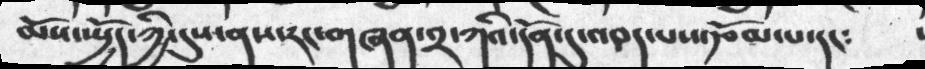མོས་ཡྱོད་ཀྱི་དུས་ནས་རང་གཞན་༢་ཀའི་དོན་དུ་འབད་པས་རྩོམ་པ་དང༴
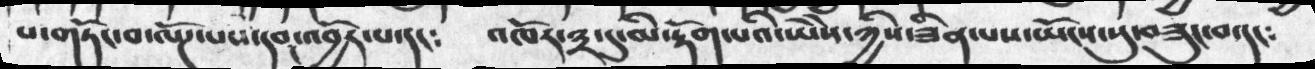པ་གཏོང་བ་ལོཌ་པས་དབང་འབྱོར་པ་དང༴  འཁོར་༣་དུ་མི་རྟོག་པའི་ཡེེས་ཀྱིས་ཟིན་པས་ཡོངས་སུ་བཟུང་བ་དང༴
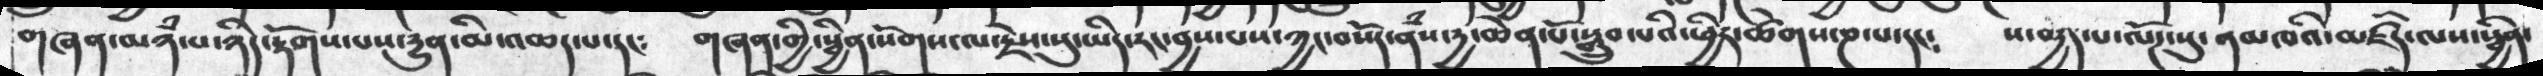གཞན་མཉཾ་པ་ཉིད་རྟོགས་པས་རྱུན་མི་འཆད་པ་དང༴   གཞན་གྱི་སྦྱིན་སོགས་ལ་རྗེས་སུ་ཡི་རང་བྱས་པས་ཀྱང་བསོད་ནཾས་རྱ་ཆེན་པོ་སྒྲུབ་པའི་ཕྱིར་ཚིགས་ཎ་པ་དང༴   ས་བརྱད་པ་ལོཌ་སུ་ནམཁའི་མཚིད་ལས་སྦྱིན་
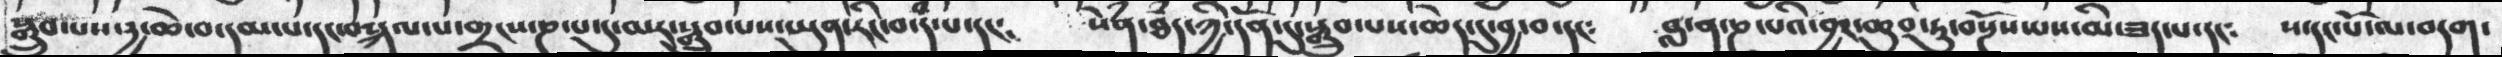སྒྲུབ་པས་དྱ་ཆེ་བ་དམ་པ་དང་བསྐལ་པ་གྲངས་ཎ་པ་དུ་མར་སྒྲུབ་པས་ཡུན་རིང་བ་ད་ཾཔ་དང༴  སེཾན་ཐཾད་ཀྱི་དོན་དུ་སྒྲུབ་པས་ཆེད་དུ་བྱ་བ་དང༴   བླ་ན་ཎ་པའི་བྱང་ཆུབ་ཏུ་བསྔོས་པས་མི་ཟད་པ་དང༴   ས་དང་པོ་ལ་བདག་
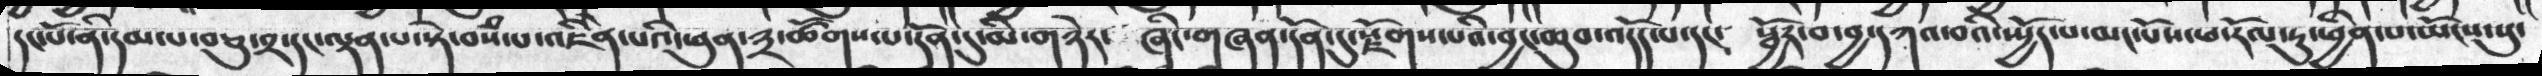དང་པོ་ནི་དམ་པ་བཅུ་༢་དང་ལྡན་པ་སྟེ་བསཾ་པ་འཇིིན་པའི་ཕུན་༣་ཚོགས་པ་དོན་དུ་མི་གཉེར་  ཞིང་གཞན་དོན་དུ་སྫོགས་པའི་བྱང་ཆུབ་འདོད་པ་དང༴   སྦྱོར་བ་བྱ་དཀའ་བའི་ཡྱོད་པ་མང་པོས་ཕ་རོལ་ཏུ་ཕྱིན་པ་ཡོངས་སུ་
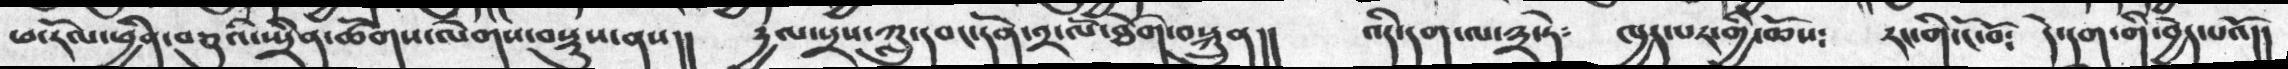ཕ་རོལ་ཕྱིན་བཅུའི་སྤྲིན་ཚོགས་ལེགས་བསྡུས་ནས།།  དྱལ་སྲས་ཀླུ་དབང་དོན་༢་ལོ་ཐོག་བསྐྲུན།།   འདི་དག་ལ་༣་ཏེ༴  ཁྱད་པར་གྱི་ཆོས༴  རང་གི་ངོ་བོ༴  དེ་དག་གི་བྱེད་པའོ།།
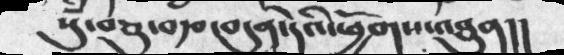སུཾ་བཅུ་བརྩ་བདུན་དེའི་ཕྱོགས་འཐུན།།
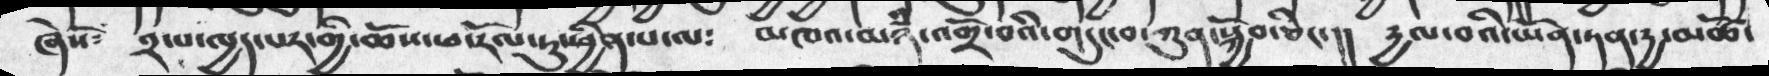ཞེསོ༴  ༢་པ་ཁྱད་པར་གྱི་ཆོས་ཕ་རོལ་ཏུ་ཕྱིན་པ་ལ༴  མཁའ་མཉཾ་འགྲོ་བའི་གདུང་བ་ཀུན་སྐྱོབ་ཅིང་།།  དྱལ་བའི་ཡོན་ཏན་དྱ་མཚོ་
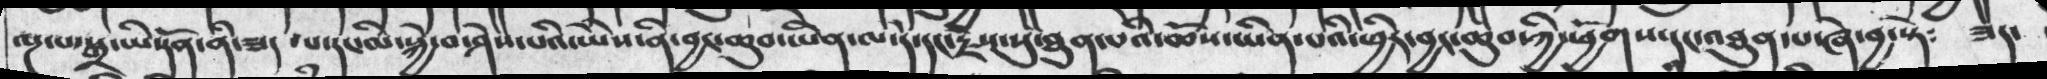ལྔ་པ་སྒྲ་ཡི་དོན་ནི་ཟད ་པ་དང་མི་སྐྱེ་བ་ཤེས་པའི་ཡཻས་ནི་བྱང་ཆུབ་ཡིན་ལ་དེ་དང་རྗེས་སུ་ཐུན་པའི་ཆོས་ཡིན་པའི་ཕྱིར་བྱང་ཆུབ་ཀྱི་ཕྱོགས་དང་འཐུན་པ་ཞེ་བྱ་སྟེ༴  ཟད་
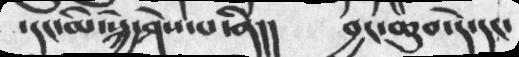་དང་མི་སྐྱེ་ཤེས་པ་ནི།།   བྱང་ཆུབ་དེ་དང་
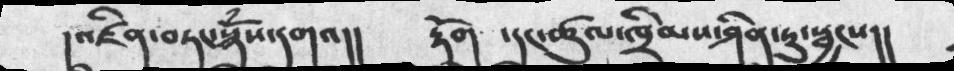།འཛིན་བཏང་སྙོཾས་དགའ།།  རྟོག ་དང་ཚུལ་ཁྲིམས་ཤིན་ཏུ་སྦྱངས།།
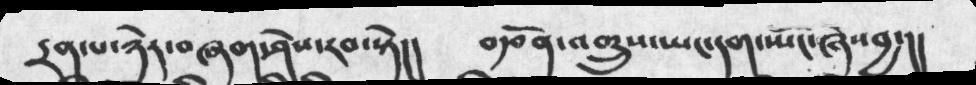དྲན་པ་ཉེར་བཞགྷ་ཤིས་རབ་སྟེ།།   བརྩོན་འགྲུས་ཡང་དག་སྤོང་ཞེས་བྱ་།།
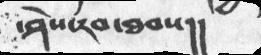་ཤེས་རབ་ཐབས།།
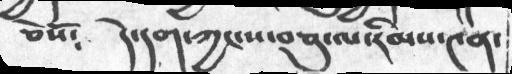ཅེསོ༴  དེ་དག་ཀྱང་ས་བཅུ་ལ་རིམས་༤ན་
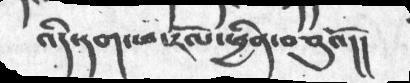འདི་དག་ཕ་རོལ་ཕྱིན་བཅུའོ།།
